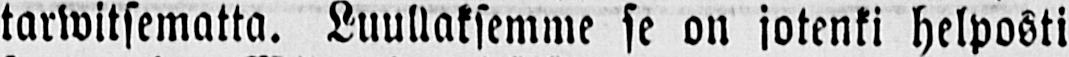tarwitsematta. Luullaksemme se on jotenki helposti
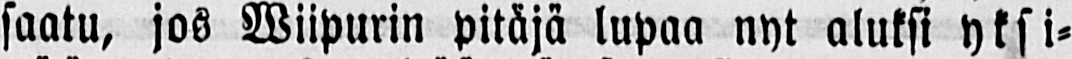saatu, jos Wiipurin pitäjä lupaa nyt aluksi yksi-
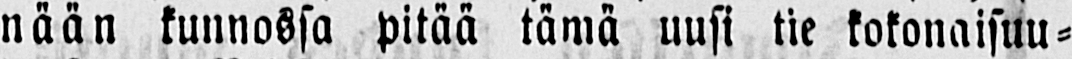nään kunnossa pitää tämä uusi tie kokonaisuu-
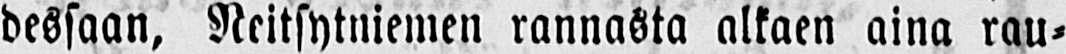dessaan, Neitsytniemen rannasta alkaen aina rau-
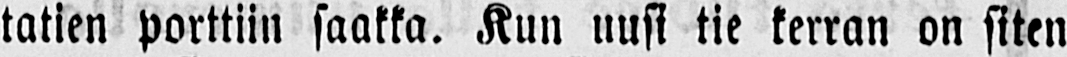tatien porttiin saakka. Kun uusi tie kerran on siten
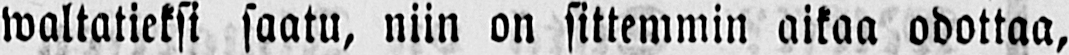waltatieksi saatu, niin on sittemmin aikaa odottaa,
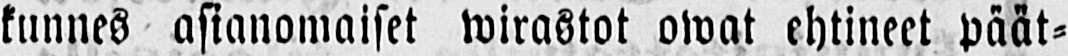kunnes asianomaiset wirastot owat ehtineet päät-
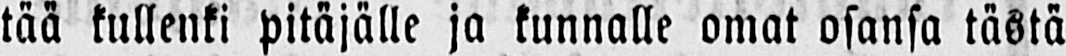tää kullenki pitäjälle ja kunnalle omat osansa tästä
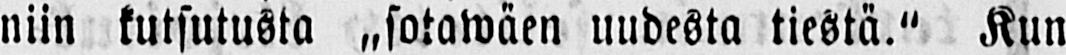niin kutsutusta „sotawäen uudesta tiestä." Kun
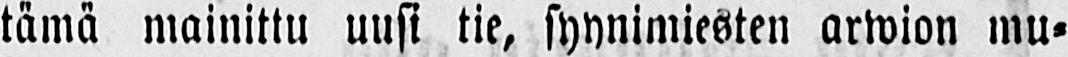tämä mainittu uusi tie, syynimiesten arwion mu-
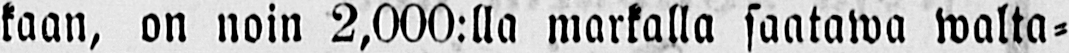kaan, on noin 2,000:lla markalla saatawa walta-
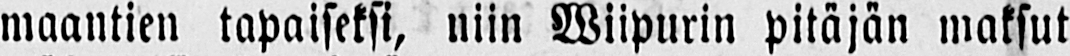maantien tapaiseksi, niin Wiipurin pitäjän maksut
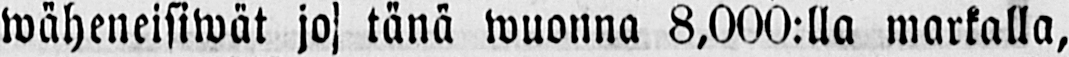wäheneisiwät jo tänä wuonna 8,000:lla markalla,
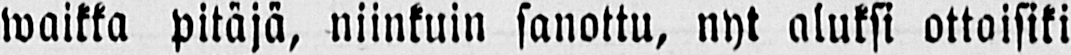waikka pitäjä, niinkuin sanottu, nyt aluksi ottoisiki
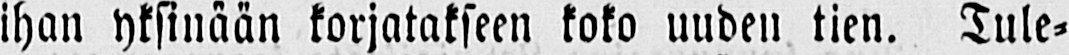ihan yksinään korjatakseen koko uuden tien. Tule-
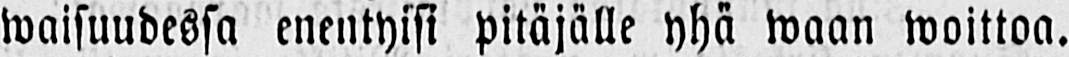waisuudessa enentyisi pitäjälle yhä waan woittoa.
